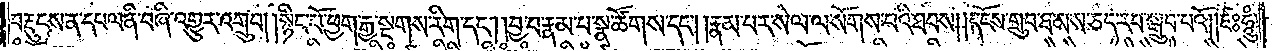བརྡུངས་ན་དཔལ་ནི་བཞི་འགྱུར་འགྲུབ། །སྙིང་པོ་ཕྱག་རྒྱ་སྔགས་རིག་དང༌། །བྱ་བ་རྣམ་པ་སྣ་ཚོགས་དང༌། །རྣམ་པར་སེལ་ལ་སོགས་པའི་ཐབས། །དངོས་གྲུབ་ཐམས་ཅད་རབ་སྒྲུབ་པའོ། །ཛཿཧཱུཾ་
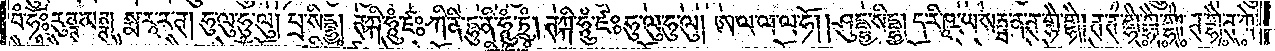བཾ་ཧོཿརུཊྚ་མཊྚ། སྨ་རཱ་ར་ཊ། ཧུ་ལུ་ཧུ་ལུ། པྲ་སིདྡྷྱ། ཊཀྐི་ཧཱུཾ་ཛཿ ཀི་ནི་དྷུ་ནི་ཧཱུཾ་ཏྲུཾ། ཊཀྐི་ཧཱུཾ་ཛཿ ཧུ་ལུ་ཧུ་ལུ། ཨ་ལ་ལ་ལ་ཧོ། །ཤུདྡྷྱ་སིདྡྷྱ། ད་རིཥཱ་ཡ་སརྦྦ་ན་ཊ་གྷཻ་གྷཻ། ཊ་ཊ་གྷཻ་གྷཻ་གྷཻ། ཊ་གྷཻ་ཊ་ཀ་
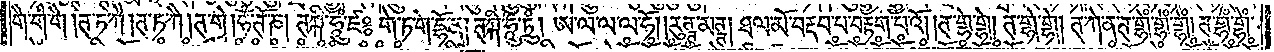གཻ་གཻ་གཻ །ཊ་ཏ་ཀཻ །ཊ་ཏ་ཀཻ །ཊ་གེ །ཧཾ་ཊོ་ཎ། ཊཀྐི་ཧཱུཾ་ཛཿ གེ་ཏ་གེ་དྷོ་ན། ཊཀྐི་ཧཱུཾ་ཏྲུཾ། ཨ་ལ་ལ་ལ་ཧོ། །རུཊྚ་མཊྚ། ཐལ་མོ་བརྡབ་པ་བརྟག་པའོ། །ཊ་གྷེ་གྷེ། ཊ་གྷེ་གྷེ། ཊ་ཀེ་ན་ཊ་གྷེཾ་གྷེཾ་གྷེཾ། ཊ་གྷེཾ་གྷེཾ་
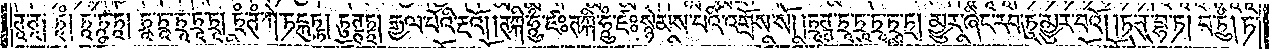ཊཱ་ཊཱ༑ ཏཱཾ། ཏཱ་ཏཱ་ཏཱ། ཏྲཱ་ཏྲཱ་ཏྲཱ་ཏྲཱ་ཏྲཱ། ཏྲཾ་ཊཾ་ཀེ་ཏངྐུཏྟ། ཏུཊྚཏྟྲ། རྒྱལ་པོའི་རྔའོ། །ཊཀྐི་ཧཱུཾ་ཛཿ ཊཀྐི་ཧཱུཾ་ཛཿ སྙེམས་པའི་འགྲོས་སོ། །ཏྲཱཊྚ་ཏྲཱ་ཏྲཱ་ཏྲཱ་ཏྲཱ་ཏྲ། མྱུར་ཞིང་རབ་ཏུ་མྱུར་བའོ། །ཏ་ཊ་བྷ་ཏ། བ་ཏྲུཾ། ཏ་
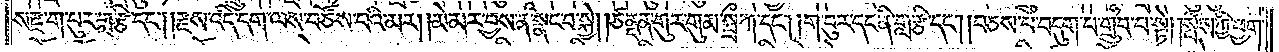སརྫ་ག་པུར་གླ་རྩི་དང༌། །རྫས་འདི་དག་ལས་བཙོས་པའི་མར། །མེ་མར་བྱས་ན་སྣང་བ་སྐྱེ། །ཙནྡན་གུར་གུམ་སྦྲྀ་ཀ་དང༌། །ག་བུར་དང་ནི་གླ་རྩི་དང༌། །བཅས་པ་བདུག་པ་གྲུབ་པ་སྟེ། །སྤོས་ཀྱི་ཕྱག་
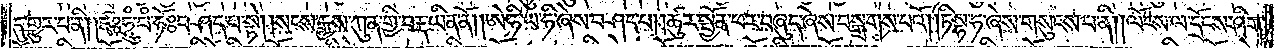དུ་གྱུར་པ་ནི། །ཛཿཧཱུཾ་བཾ་ཧོཿ བཤད་པ་སྟེ། །སངས་རྒྱས་ཀུན་གྱི་བརྡ་ཡིན་ནོ། །ཨེ་ཧི་ཡ་ཧི་ཞེས་བཤད་པ། །ཚུར་སྦྱོན་ཕར་བཞུད་ཞེས་བསྒྲགས་པའོ། །ཏིསྷ་ཞེས་གསུངས་པ་ནི། །ལོངས་ལ་དྲོངས་ཤིག་
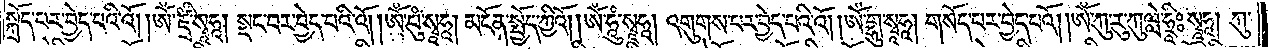སྒྲོད་པར་བྱེད་པའི་འོ། །ཨོཾ་ཛྲཾ་སྭཱཧཱ། སྡང་བར་བྱེད་པའི་འོ། །ཨོཾ་བུཾ་སྭཱཧཱ། མངོན་སྤྱོད་ཀྱིའོ། །ཨོཾ་ཧཱུཾ་སྭཱཧཱ། འགུགས་པར་བྱེད་པའི་འོ། །ཨོཾ་ཧཱུཾ་སྭཱཧཱ། གསོད་པར་བྱེད་པའོ། །ཨོཾ་ཀུ་རུ་ཀུ་ལླེ་ཧྲཱིཿསྭཱཧཱ། ཀུ་
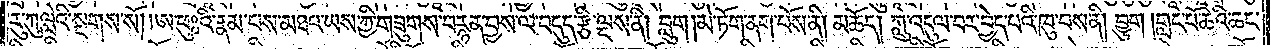རུ་ཀུལླེའི་སྔགས་སོ། །ཨ་ཕུཿའི་རྣམ་པས་མཐའ་ཡས་ཀྱི་གཟུགས་བརྙན་བྱས་ལ་བདུད་རྩི་ལྔས་ནི། བླུག །མེ་ཏོག་ནག་པོས་ནི། མཆོད། ཀླུ་འདུལ་བར་བྱེད་པའི་ཁུ་བས་ནི། བྱུག །གླང་པོ་ཆེའི་ཆང་
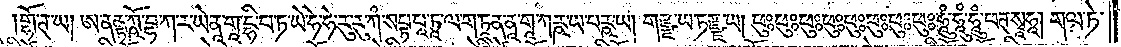གྷོ་ཊ་ཡ། ཨ་ནནྟ་ཀྵོ་བྷ་ཀ་ར་ཡེ་ནཱ་གཱ་དྷི་པ་ཏ་ཡེ་ཧེ་ཧེ་རུ་རུ་ཀཾ་སཔྟ་པཱ་ཏཱ་ལ་ག་ཏཱན་ནཱ་གཱ་ཀཪྵ་ཡ་པཪྵ་ཡ། གརྫྫ་ཡ་ཏརྫྫ་ཡ། ཕུཿཕུཿཕུཿཕུཿཕུཿཕུཿཕུཿཕུཿཧཱུཾ་ཧཱུཾ་ཧཱུཾ་ཕཊ་སྭཱཧཱ། གལ་ཏེ་
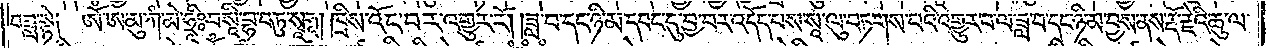བཟླ་སྟེ༑ ཨོཾ་ཨ་མུ་ཀཾ་མེ་ཧྲཱིཿ བ་སཱི་བྷ་བ་ཏུ་སྭཱཧཱ། ཁྲིས་འོང་བར་འགྱུར་རོ། །ཟླ་བ་དང་ཉི་མ་དབང་དུ་བྱ་བར་འདོད་པས་སཱ་ལུ་བཏགས་པའི་འགྱུར་བ་ལ་ཟླ་བ་དང་ཉི་མ་བྱས་ནས་རྡོ་རྗེའི་ཆུ་ལ་
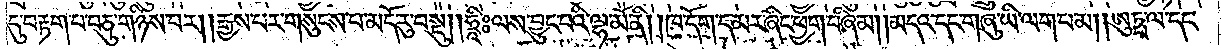དུ་བརྟག་པ་བཅུ་གཉིས་པར། །རྒྱས་པར་གསུངས་པ་མདོ་རུ་བསྡུ། །ཧྲཱིཿ ལས་བྱུང་བའི་ལྷ་མོ་ནི། །ཁ་དོག་དམར་ཞིང་ཕྱག་བཞི་མ། །མདའ་དང་གཞུ་ཡི་ལག་པ་མ། །ཨུཏྤ་ལ་དང་
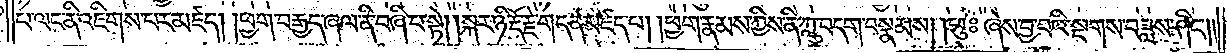པ་ལང་ནི་འཇིགས་པར་མཛད། །ཕྱག་བརྒྱད་ཞལ་ནི་བཞི་པ་སྟེ། །སྐར་ཉི་རྡོ་རྗེ་གདན་མཛད་པ། །ཕྱག་རྣམས་ཀྱིས་ནི་ཀླུ་བདག་བསྣམས། །ཕུཿ ཞེས་བྱ་བའི་སྔགས་བཟླས་ཤིང༌༎
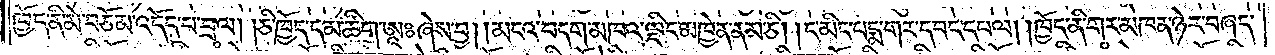ཁྱོད་ནི་མེ་བཅོམ་འདོད་པ་བྲལ། །ཅི་ཁྱོད་དམ་ཚིག་ཨཱཿཞེས་བྱ། །མངའ་བདག་མཁའ་ལྡིང་མཁྱེན་ནམ་ཅི། །ད་མིང་པདྨ་གར་དབང་དཔལ། །ཁྱོད་ནི་གར་མཁན་ཉེར་བཞད་
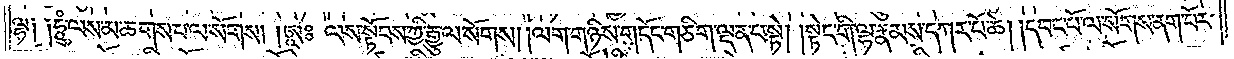ལྷ༑ ༑ཧཱུཾ་ལས་མ་ཆགས་པ་ལ་སོགས། །ཨཱཿ ལས་སྟོབས་ཀྱི་རྒྱུ་ལ་སོགས། །ལག་གཉིས་གདོང་གཅིག་ལྡན་པ་སྟེ། །སྟེང་གི་ལྷ་རྣམས་དཀར་པོ་ཆེ། །དབང་པོ་ལ་སོགས་ནག་པོར་
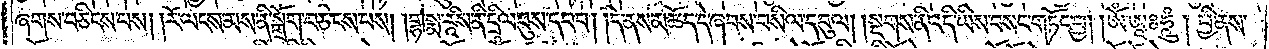ཞགས་བཅིངས་པས། །རོ་ལངས་མས་ནི་སྒྲོག་བཅིངས་པས། །གྷསྨ་རཱིས་ནི་དྲིལ་བུས་དབབ། །དེ་ནས་མཆོད་དེ་ཞབས་བསིལ་དབུལ། །སྔགས་ནི་འདི་ཡིས་བསང་གཏོང་བྱ། །ཨོཾ་ཨཱཿཧཱུཾ། ཕྱི་ནས་
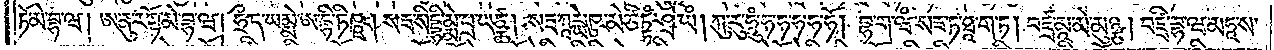ཏོ་མེ་བྷ་ཝ། ཨ་ནུ་རཀྟོ་མེ་བྷ་ཝ། ཧྲྀ་ད་ཡམྨེ་ཨ་དྷི་ཏིཥྛ། སརྦ་སིདྡྷི་མྨེ་པྲ་ཡཙྪ། སརྦ་ཀཱཪྱེ་ཥུ་མེ་ཙིཏྟཾ་ཤྲེ་ཡཾ། ཀུ་རུ་ཧཱུཾ་ཧ་ཧ་ཧ་ཧ་ཧོ། བྷ་ག་ཝཾ་སརྦ་ཏ་ཐཱ་ག་ཏ། བཛྲ་མཱ་མེ་མུཉྩ། བཛྲི་བྷ་ཝ་མཧཱ་ས་
